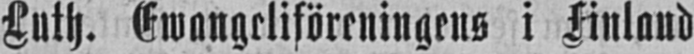Luth. Ewangeliföreningens i Finland
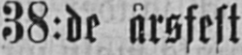38:de årsfest
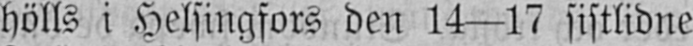hölls i Helsingfors den 14—17 sistlidne
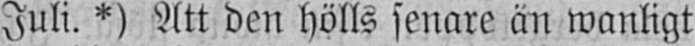Juli. *) Att den hölls senare än wanligt
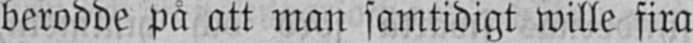berodde på att man samtidigt wille fira
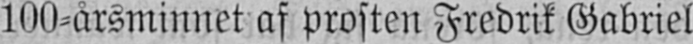100-årsminnet af prosten Fredrik Gabriel
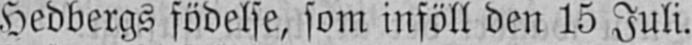Hedbergs födelse, som inföll den 15 Juli.
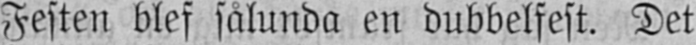Festen blef sålunda en dubbelfest. Det
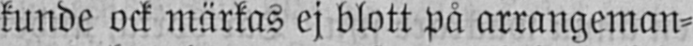kunde ock märkas ej blott på arrangeman-
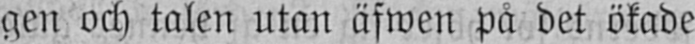gen och talen utan äfwen på det ökade
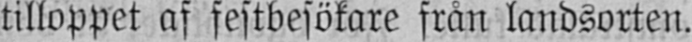tilloppet af festbesökare från landsorten.
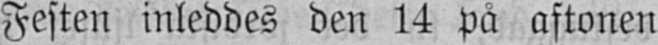Festen inleddes den 14 på aftonen
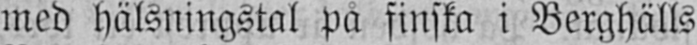med hälsningstal på finska i Berghälls
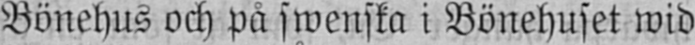Bönehus och på swenska i Bönehuset wid
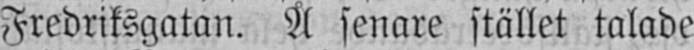Fredriksgatan. Å senare stället talade
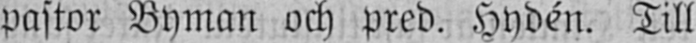pastor Byman och pred. Hydén. Till
